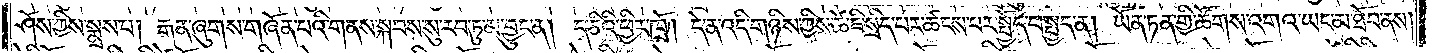ཤོས་ཀྱིས་སྨྲས་པ། རྒན་ཞུགས་གཞོན་པའི་གནས་སྐབས་སུ་རབ་ཏུ་མ་བྱུང་ན། ད་ཅིའི་ཕྱིར་ཁྲོ། དེ་ན་འདི་གཉིས་ཀྱིས་ཚེ་ཇི་སྲིད་པར་ཚངས་པར་སྤྱོད་པ་སྤྱད་ན། ཡོན་ཏན་གྱི་ཚོགས་འགའ་ཡང་མ་ཐོབ་ནས།
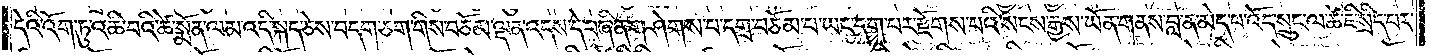དེའི་འོག་ཏུ་འཆི་བའི་ཚེ་སྨོན་ལམ་འདི་སྐད་ཅེས་བདག་ཅག་གིས་བཅོམ་ལྡན་འདས་དེ་བཞིན་གཤེགས་པ་དགྲ་བཅོམ་པ་ཡང་དག་པར་རྫོགས་པའི་སངས་རྒྱས་ཡོན་གནས་བླ་ན་མེད་པ་འོད་སྲུང་ལ་ཚེ་ཇི་སྲིད་པར་
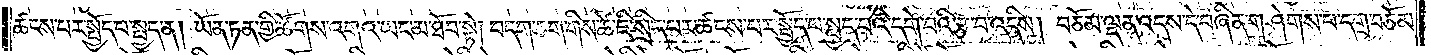ཚངས་པར་སྤྱོད་པ་སྤྱད་ན། ཡོན་ཏན་གྱི་ཚོགས་འགའ་ཡང་མ་ཐོབ་སྟེ། བདག་ཅག་གིས་ཚེ་ཇི་སྲིད་པར་ཚངས་པར་སྤྱོད་པ་སྤྱད་པའི་དགེ་བའི་རྩ་བ་འདིས། བཅོམ་ལྡན་འདས་དེ་བཞིན་གཤེགས་པ་དགྲ་བཅོམ་
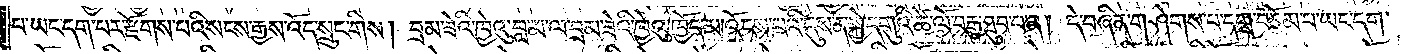པ་ཡང་དག་པར་རྫོགས་པའི་སངས་རྒྱས་འོད་སྲུང་གིས། བྲམ་ཟེའི་ཁྱེའུ་བླ་མ་ལ་བྲམ་ཟེའི་ཁྱེའུ་ཁྱོད་མ་འོངས་པའི་དུས་ན་སྐྱེ་དགུའི་ཚེ་ལོ་བརྒྱ་ཐུབ་པ་ན། དེ་བཞིན་གཤེགས་པ་དགྲ་བཅོམ་པ་ཡང་དག་
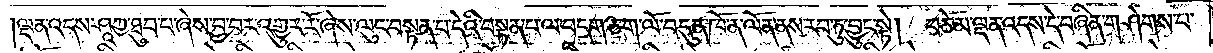ལྡན་འདས་ཤཱཀྱ་ཐུབ་པ་ཞེས་བྱ་བར་འགྱུར་རོ་ཞེས་ལུང་བསྟན་པ་དེའི་བསྟན་པ་ལ་བདག་ཅག་ལོ་བདུན་ཁོ་ན་ལོན་ནས་རབ་ཏུ་བྱུང་སྟེ། བཅོམ་ལྡན་འདས་དེ་བཞིན་གཤེགས་པ་
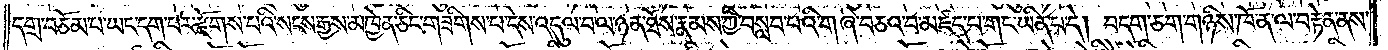དགྲ་བཅོམ་པ་ཡང་དག་པར་རྫོགས་པའི་སངས་རྒྱས་མཁྱེན་ཅིང་གཟིགས་པ་དེས་འདུལ་བ་ལ་ཉན་ཐོས་རྣམས་ཀྱི་བསླབ་པའི་གཞི་བཅའ་བ་མཛད་པ་གང་ཡིན་པ་དེ། བདག་ཅག་གཉིས་ཁོ་ན་ལ་བརྟེན་ནས་
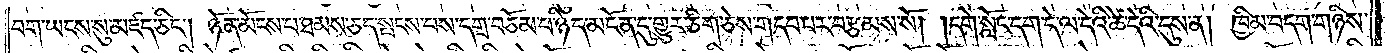བག་ཡངས་སུ་མཛད་ཅིང༌། ཉོན་མོངས་པ་ཐམས་ཅད་སྤངས་པས་དགྲ་བཅོམ་པ་ཉིད་མངོན་དུ་གྱུར་ཅིག་ཅེས་གདབ་པར་བརྩམས་སོ། །དགེ་སློང་དག་དེ་ལ་དེའི་ཚེ་དེའི་དུས་ན། ཁྱིམ་བདག་གཉིས་
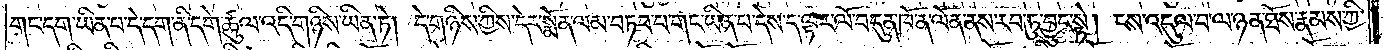གང་དག་ཡིན་པ་དེ་དག་ནི་དགེ་ཚུལ་འདི་གཉིས་ཡིན་ཏེ། དེ་གཉིས་ཀྱིས་དེར་སྨོན་ལམ་བཏབ་པ་གང་ཡིན་པ་དེས་ད་ལྟར་ལོ་བདུན་ཁོ་ན་ལོན་ནས་རབ་ཏུ་བྱུང་སྟེ། ངས་འདུལ་བ་ལ་ཉན་ཐོས་རྣམས་ཀྱི་
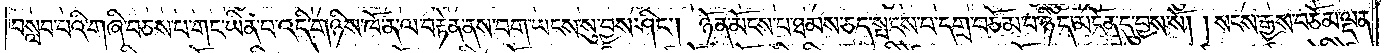བསླབ་པའི་གཞི་བཅས་པ་གང་ཡིན་པ་འདི་གཉིས་ཁོ་ན་ལ་བརྟེན་ནས་བག་ཡངས་སུ་བྱས་ཤིང༌། ཉོན་མོངས་པ་ཐམས་ཅད་སྤངས་པ་དགྲ་བཅོམ་པ་ཉིད་མངོན་དུ་བྱས་སོ། །སངས་རྒྱས་བཅོམ་ལྡན་
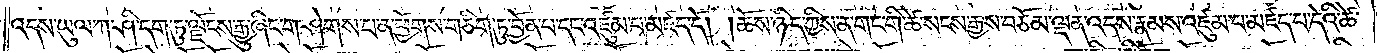འདས་ཡུལ་ཀ་ཤི་དག་ཏུ་ལྗོངས་རྒྱུ་ཞིང་གཤེགས་པ་ན་ཕྱོགས་གཅིག་ཏུ་བྱོན་པ་དང་འཛུམ་པ་མཛད་དོ། །ཆོས་ཉིད་ཀྱིས་ན་གང་གི་ཚེ་སངས་རྒྱས་བཅོམ་ལྡན་འདས་རྣམས་འཛུམ་པ་མཛད་པ་དེའི་ཚེ་
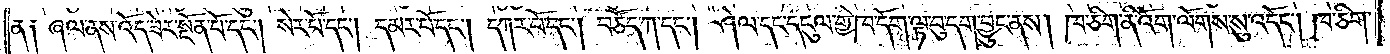ན༑ ཞལ་ནས་འོད་ཟེར་སྔོན་པོ་དང༌། སེར་པོ་དང༌། དམར་པོ་དང༌། དཀར་པོ་དང༌། བཙོད་ཀ་དང༌། ཤེལ་དང་དངུལ་གྱི་ཁ་དོག་ལྟ་བུ་དག་བྱུང་ནས། ཁ་ཅིག་ནི་འོག་ལོགས་སུ་འདོང༌། ཁ་ཅིག་
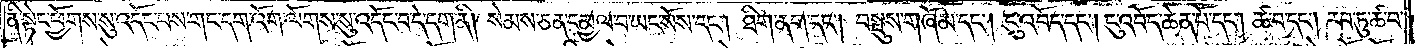ནི་སྟེང་ཕྱོགས་སུ་འདོང་པས་གང་དག་འོག་ལོགས་སུ་འདོང་བ་དེ་དག་ནི། སེམས་ཅན་དམྱལ་བ་ཡང་སོས་དང༌། ཐིག་ནག་དང༌། བསྡུས་གཞོམ་དང༌། ངུ་འབོད་དང༌། ངུ་འབོད་ཆེན་པོ་དང༌། ཚ་བ་དང༌། རབ་ཏུ་ཚ་བ་
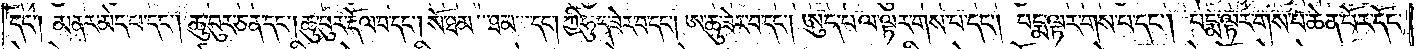དང༌། མནར་མེད་པ་དང༌། ཆུ་བུར་ཅན་དང༌། ཆུ་བུར་རྡོལ་བ་དང༌། སོ་ཐམ་ཐམ་དང༌། ཀྱི་ཧུད་ཟེར་བ་དང༌། ཨ་ཆུ་ཟེར་བ་དང༌། ཨུད་པལ་ལྟར་གས་པ་དང༌། པདྨ་ལྟར་གས་པ་དང༌། པདྨ་ལྟར་གས་པ་ཆེན་པོར་དོང་
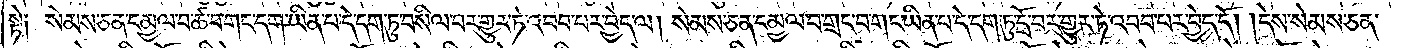སྟེ༑ སེམས་ཅན་དམྱལ་བ་ཚ་བ་གང་དག་ཡིན་པ་དེ་དག་ཏུ་བསིལ་བར་གྱུར་ཏེ་འབབ་པར་བྱེད་ལ། སེམས་ཅན་དམྱལ་བ་གྲང་བ་གང་ཡིན་པ་དེ་དག་ཏུ་དྲོ་བར་གྱུར་ཏེ་འབབ་པར་བྱེད་དོ། །དེས་སེམས་ཅན་
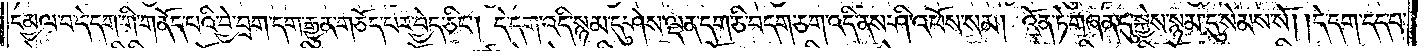དམྱལ་བ་དེ་དག་གི་གནོད་པའི་བྱེ་བྲག་དག་རྒྱུན་གཅོད་པར་བྱེད་ཅིང༌། དེ་དག་འདི་སྙམ་དུ་ཤེས་ལྡན་དག་ཅི་བདག་ཅག་འདི་ནས་ཤི་འཕོས་སམ། འོན་ཏེ་གཞན་དུ་སྐྱེས་སྙམ་དུ་སེམས་སོ། །དེ་དག་དད་པ་
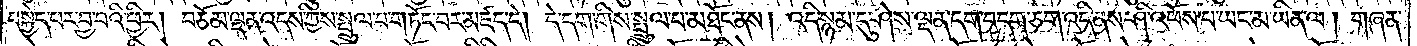བསྐྱེད་པར་བྱ་བའི་ཕྱིར། བཅོམ་ལྡན་འདས་ཀྱིས་སྤྲུལ་པ་གཏོང་བར་མཛད་དེ། དེ་དག་གིས་སྤྲུལ་པ་མཐོང་ནས། འདི་སྙམ་དུ་ཤེས་ལྡན་དག་བདག་ཅག་འདི་ནས་ཤི་འཕོས་པ་ཡང་མ་ཡིན་ལ། གཞན་
